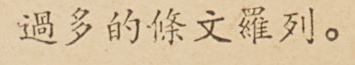過多的條文羅列。
